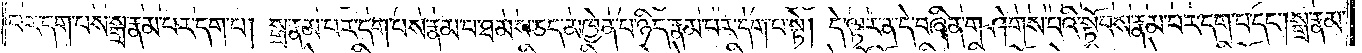པར་དག་པས་སྒྲ་རྣམ་པར་དག་པ། སྒྲ་རྣམ་པར་དག་པས་རྣམ་པ་ཐམས་ཅད་མཁྱེན་པ་ཉིད་རྣམ་པར་དག་པ་སྟེ། དེ་ལྟར་ན་དེ་བཞིན་གཤེགས་པའི་སྟོབས་རྣམ་པར་དག་པ་དང༌། སྒྲ་རྣམ་
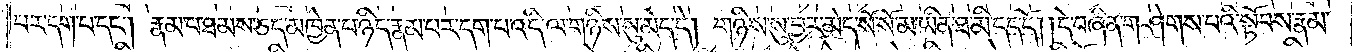པར་དག་པ་དང༌། རྣམ་པ་ཐམས་ཅད་མཁྱེན་པ་ཉིད་རྣམ་པར་དག་པ་འདི་ལ་གཉིས་སུ་མེད་དེ། གཉིས་སུ་བྱར་མེད་སོ་སོ་མ་ཡིན་ཐ་མི་དད་དོ། །དེ་བཞིན་གཤེགས་པའི་སྟོབས་རྣམ་
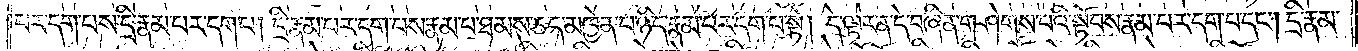པར་དག་པས་དྲི་རྣམ་པར་དག་པ། དྲི་རྣམ་པར་དག་པས་རྣམ་པ་ཐམས་ཅད་མཁྱེན་པ་ཉིད་རྣམ་པར་དག་པ་སྟེ། དེ་ལྟར་ན་དེ་བཞིན་གཤེགས་པའི་སྟོབས་རྣམ་པར་དག་པ་དང༌། དྲི་རྣམ་
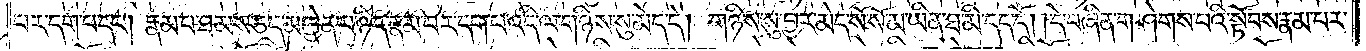པར་དག་པ་དང༌། རྣམ་པ་ཐམས་ཅད་མཁྱེན་པ་ཉིད་རྣམ་པར་དག་པ་འདི་ལ་གཉིས་སུ་མེད་དེ། གཉིས་སུ་བྱར་མེད་སོ་སོ་མ་ཡིན་ཐ་མི་དད་དོ། །དེ་བཞིན་གཤེགས་པའི་སྟོབས་རྣམ་པར་
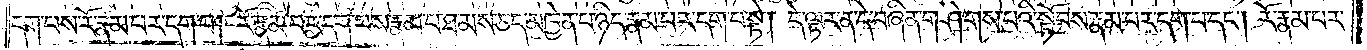དག་པས་རོ་རྣམ་པར་དག་པ། རོ་རྣམ་པར་དག་པས་རྣམ་པ་ཐམས་ཅད་མཁྱེན་པ་ཉིད་རྣམ་པར་དག་པ་སྟེ། དེ་ལྟར་ན་དེ་བཞིན་གཤེགས་པའི་སྟོབས་རྣམ་པར་དག་པ་དང༌། རོ་རྣམ་པར་
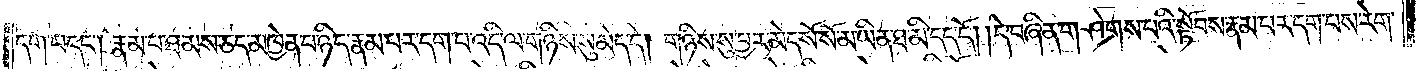དག་པ་དང༌། རྣམ་པ་ཐམས་ཅད་མཁྱེན་པ་ཉིད་རྣམ་པར་དག་པ་འདི་ལ་གཉིས་སུ་མེད་དེ། གཉིས་སུ་བྱར་མེད་སོ་སོ་མ་ཡིན་ཐ་མི་དད་དོ། །དེ་བཞིན་གཤེགས་པའི་སྟོབས་རྣམ་པར་དག་པས་རེག་
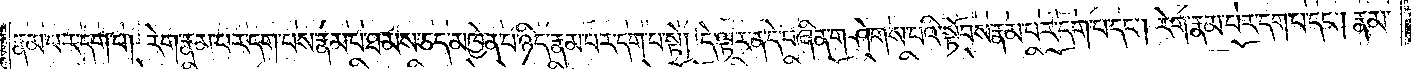རྣམ་པར་དག་པ། རེག་རྣམ་པར་དག་པས་རྣམ་པ་ཐམས་ཅད་མཁྱེན་པ་ཉིད་རྣམ་པར་དག་པ་སྟེ། དེ་ལྟར་ན་དེ་བཞིན་གཤེགས་པའི་སྟོབས་རྣམ་པར་དག་པ་དང༌། རེག་རྣམ་པར་དག་པ་དང༌། རྣམ་
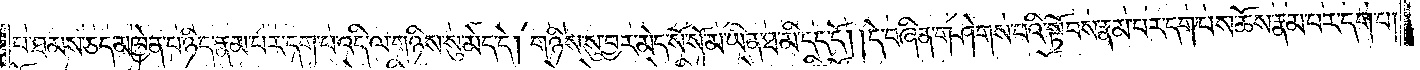པ་ཐམས་ཅད་མཁྱེན་པ་ཉིད་རྣམ་པར་དག་པ་འདི་ལ་གཉིས་སུ་མེད་དེ། གཉིས་སུ་བྱར་མེད་སོ་སོ་མ་ཡིན་ཐ་མི་དད་དོ། །དེ་བཞིན་གཤེགས་པའི་སྟོབས་རྣམ་པར་དག་པས་ཆོས་རྣམ་པར་དག་པ།
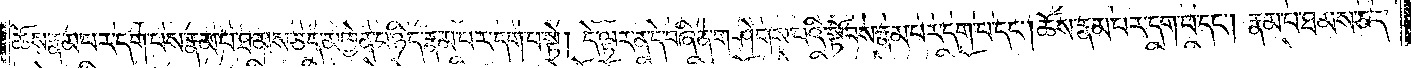ཆོས་རྣམ་པར་དག་པས་རྣམ་པ་ཐམས་ཅད་མཁྱེན་པ་ཉིད་རྣམ་པར་དག་པ་སྟེ། དེ་ལྟར་ན་དེ་བཞིན་གཤེགས་པའི་སྟོབས་རྣམ་པར་དག་པ་དང༌། ཆོས་རྣམ་པར་དག་པ་དང༌། རྣམ་པ་ཐམས་ཅད་
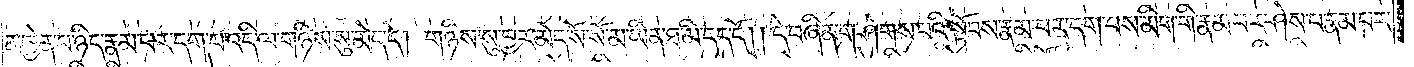མཁྱེན་པ་ཉིད་རྣམ་པར་དག་པ་འདི་ལ་གཉིས་སུ་མེད་དེ། གཉིས་སུ་བྱར་མེད་སོ་སོ་མ་ཡིན་ཐ་མི་དད་དོ། །དེ་བཞིན་གཤེགས་པའི་སྟོབས་རྣམ་པར་དག་པས་མིག་གི་རྣམ་པར་ཤེས་པ་རྣམ་པར་
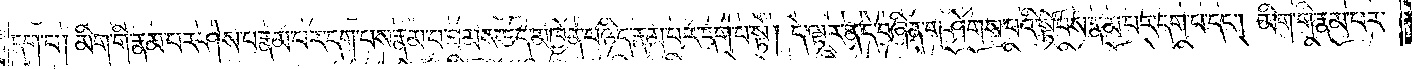དག་པ། མིག་གི་རྣམ་པར་ཤེས་པ་རྣམ་པར་དག་པས་རྣམ་པ་ཐམས་ཅད་མཁྱེན་པ་ཉིད་རྣམ་པར་དག་པ་སྟེ། དེ་ལྟར་ན་དེ་བཞིན་གཤེགས་བའི་སྟོབས་རྣམ་པར་དག་པ་དང༌། མིག་གི་རྣམ་པར་
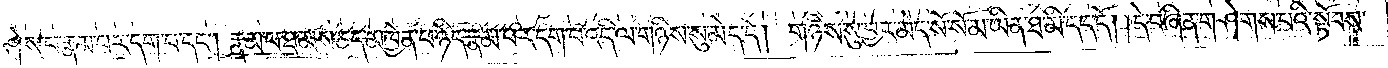ཤེས་པ་རྣམ་པར་དག་པ་དང༌། རྣམ་པ་ཐམས་ཅད་མཁྱེན་པ་ཉིད་རྣམ་པར་དག་པ་འདི་ལ་གཉིས་སུ་མེད་དེ། གཉིས་སུ་བྱར་མེད་སོ་སོ་མ་ཡིན་ཐ་མི་དད་དོ། །དེ་བཞིན་གཤེགས་པའི་སྟོབས་
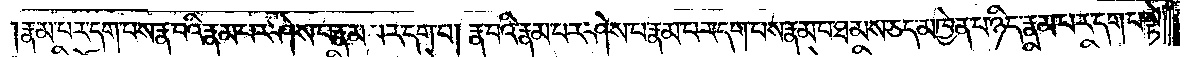རྣམ་པར་དག་པས་རྣ་བའི་རྣམ་པར་ཤེས་པ་རྣམ་པར་དག་པ། རྣ་བའི་རྣམ་པར་ཤེས་པ་རྣམ་པར་དག་པས་རྣམ་པ་ཐམས་ཅད་མཁྱེན་པ་ཉིད་རྣམ་པར་དག་པ་སྟེ།
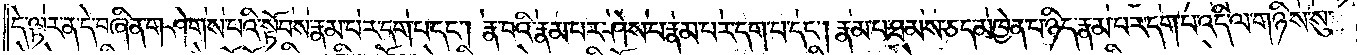དེ་ལྟར་ན་དེ་བཞིན་གཤེགས་པའི་སྟོབས་རྣམ་པར་དག་པ་དང༌། རྣ་བའི་རྣམ་པར་ཤེས་པ་རྣམ་པར་དག་པ་དང༌། རྣམ་པ་ཐམས་ཅད་མཁྱེན་པ་ཉིད་རྣམ་པར་དག་པ་འདི་ལ་གཉིས་སུ་
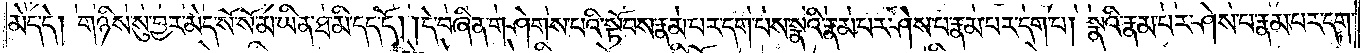མེད་དེ། གཉིས་སུ་བྱར་མེད་སོ་སོ་མ་ཡིན་ཐ་མི་དད་དོ། །དེ་བཞིན་གཤེགས་པའི་སྟོབས་རྣམ་པར་དག་པས་སྣའི་རྣམ་པར་ཤེས་པ་རྣམ་པར་དག་པ། སྣའི་རྣམ་པར་ཤེས་པ་རྣམ་པར་དག་
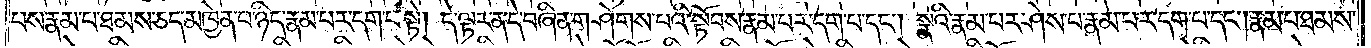པས་རྣམ་པ་ཐམས་ཅད་མཁྱེན་པ་ཉིད་རྣམ་པར་དག་པ་སྟེ། དེ་ལྟར་ན་དེ་བཞིན་གཤེགས་པའི་སྟོབས་རྣམ་པར་དག་པ་དང༌། སྣའི་རྣམ་པར་ཤེས་པ་རྣམ་པར་དག་པ་དང༌། རྣམ་པ་ཐམས་
